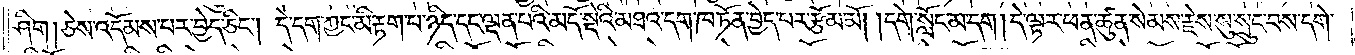ཤིག །ཅེས་འདོམས་པར་བྱེད་ཅིང༌། དེ་དག་ཀྱང་མི་རྟག་པ་ཉིད་དང་ལྡན་པའི་མདོ་སྡེའི་མཐའ་དག་ཁ་ཏོན་བྱེད་པར་རྩོམ་མོ། །དགེ་སློང་མ་དག །དེ་ལྟར་ཕན་ཚུན་སེམས་རྗེས་སུ་སྲུང་བས་དགེ་
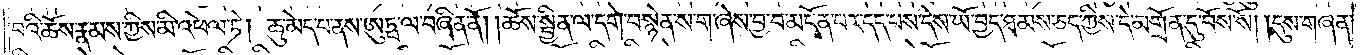བའི་ཆོས་རྣམས་ཀྱིས་མི་འཕེལ་ཏེ། ཆུ་མེད་པ་ནས་ཨུཏྤ་ལ་བཞིན་ནོ། །ཆོས་སྦྱིན་ལ་དགེ་བསྙེན་ས་ག་ཞེས་བྱ་བ་མངོན་པར་དད་པས་དེས་ཡོ་བྱད་ཐམས་ཅད་ཀྱིས་དེ་མགྲོན་དུ་བོས་སོ། །དུས་གཞན་
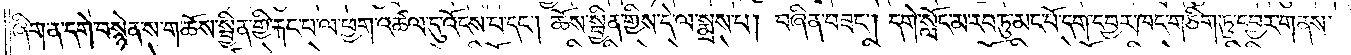ཞིག་ན་དགེ་བསྙེན་ས་ག་ཆོས་སྦྱིན་གྱི་རྐང་པ་ལ་ཕྱག་འཚལ་དུ་འོངས་པ་དང༌། ཆོས་སྦྱིན་གྱིས་དེ་ལ་སྨྲས་པ། བཞིན་བཟང༌། དགེ་སློང་མ་རབ་ཏུ་མང་པོ་དག་དབྱར་ཁང་གཅིག་ཏུ་དབྱར་གནས་
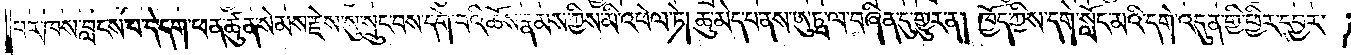པར་ཁས་བླངས་པ་དེ་དག་ཕན་ཚུན་སེམས་རྗེས་སུ་སྲུང་བས་དགེ་བའི་ཆོས་རྣམས་ཀྱིས་མི་འཕེལ་ཏེ། ཆུ་མེད་པ་ནས་ཨུཏྤ་ལ་བཞིན་དུ་གྱུར་ན། ཁྱོད་ཀྱིས་དགེ་སློང་མའི་དགེ་འདུན་གྱི་ཕྱིར་དབྱར་
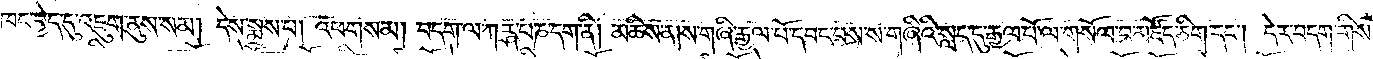ཁང་བྱེད་དུ་འཇུག་ནུས་སམ། དེས་སྨྲས་པ། འཕགས་མ། བདག་ལ་ཀཪྴ་པ་ཎ་དག་ནི། མཆིས་ན། ས་གཞི་རྒྱལ་པོ་དབང་བས་ས་གཞིའི་སླད་དུ་རྒྱལ་པོ་ལ་གསོལ་བ་མཛོད་ཅིག་དང༌། དེར་བདག་གིས་
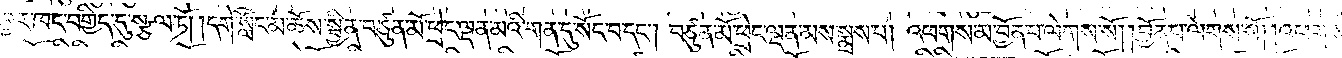དབྱར་ཁང་བགྱིད་དུ་སྩལ་ཏོ། །དགེ་སློང་མ་ཆོས་སྦྱིན་བཙུན་མོ་ཕྲེང་ལྡན་མའི་གན་དུ་སོང་བ་དང༌། བཙུན་མོ་ཕྲེང་ལྡན་མས་སྨྲས་པ། འཕགས་མ་བྱོན་པ་ལེགས་སོ། །བྱོན་པ་ལེགས་སོ། །འཕགས་
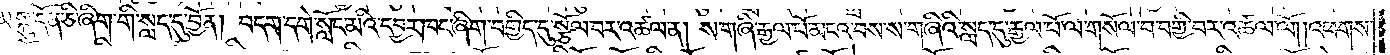མ་སྐུ་དོན་ཅི་ཞིག་གི་སླད་དུ་བྱོན། བདག་དགེ་སློང་མའི་དབྱར་ཁང་ཞིག་བགྱིད་དུ་སྩོལ་བར་འཚལ་ན། ས་གཞི་རྒྱལ་པོ་མངའ་བས་ས་གཞིའི་སླད་དུ་རྒྱལ་པོ་ལ་གསོལ་བ་བགྱི་བར་འཚལ་ལོ༎འཕགས་
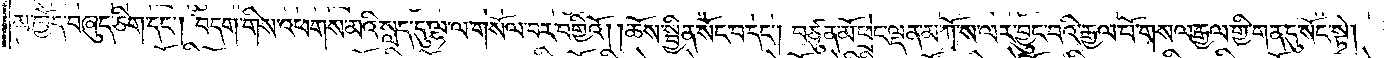མ་ཁྱོད་བཞུད་ཅིག་དང༌། བདག་གིས་འཕགས་མའི་སླད་དུ་ལྷ་ལ་གསོལ་བར་བགྱིའོ། །ཆོས་སྦྱིན་སོང་བ་དང༌། བཙུན་མོ་ཕྲེང་ལྡན་མ་ཀོ་ས་ལར་བྱུང་བའི་རྒྱལ་པོ་གསལ་རྒྱལ་གྱི་གན་དུ་སོང་སྟེ།
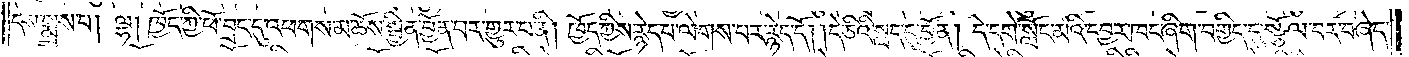དེས་སྨྲས་པ། ལྷ། ཁྱོད་ཀྱི་ཕོ་བྲང་དུ་འཕགས་མ་ཆོས་སྦྱིན་བྱོན་པར་གྱུར་པ་ནི། ཁྱོད་ཀྱིས་རྙེད་པ་ལེགས་པར་རྙེད་དོ། །དེ་ཅིའི་སླད་དུ་བྱོན། དེ་དགེ་སློང་མའི་དབྱར་ཁང་ཞིག་བགྱིད་དུ་སྩོལ་བར་བཞེད་
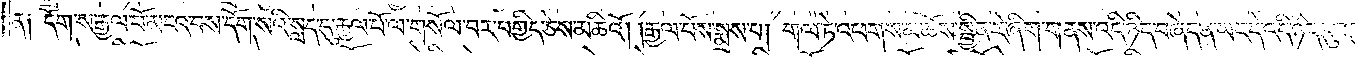ན། དོག་ས་རྒྱལ་པོ་མངའ་བས་དོག་སའི་སླད་དུ་རྒྱལ་པོ་ལ་གསོལ་བར་བགྱིད་ཅེས་མཆིའོ། །རྒྱལ་པོས་སྨྲས་པ། གལ་ཏེ་འཕགས་མ་ཆོས་སྦྱིན་རེ་ཞིག་གནས་འདི་ཉིད་བཞེད་ན་ཡང་དེ་འདི་ཉིད་དུ་བཞུགས་
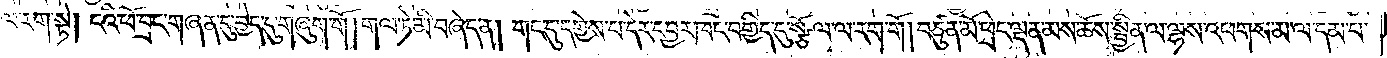ལ་རག་སྟེ། ངའི་ཕོ་བྲང་གཞན་དུ་བྱེད་དུ་གཞུག་གོ །གལ་ཏེ་མི་བཞེད་ན། གང་དུ་དགྱེས་པ་དེར་དབྱར་ཁང་བགྱིད་དུ་སྩོལ་ལ་རག་གོ། བཙུན་མོ་ཕྲེང་ལྡན་མས་ཆོས་སྦྱིན་ལ་ལྷས་འཕགས་མ་ལ་དམ་པ་
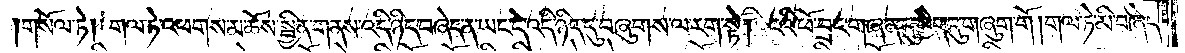གསོལ་ཏེ། གལ་ཏེ་འཕགས་མ་ཆོས་སྦྱིན་གནས་འདི་ཉིད་བཞེད་ན་ཡང་དེ་འདི་ཉིད་དུ་བཞུགས་ལ་རག་སྟེ། ངའི་ཕོ་བྲང་གཞན་དུ་བྱེད་དུ་གཞུག་གོ །གལ་ཏེ་མི་བཞེད་
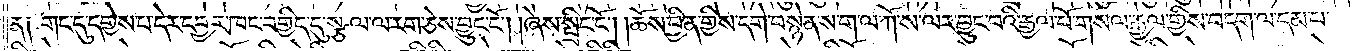ན༑ གང་དུ་དགྱེས་པ་དེར་དབྱར་ཁང་བགྱིད་དུ་སྩལ་ལ་རག་ཅེས་བྱུང་ངོ༌། །ཞེས་སྤྲིང་ངོ༌། །ཆོས་བྱིན་གྱིས་དགེ་བསྙེན་ས་ག་ལ་ཀོ་ས་ལར་བྱུང་བའི་རྒྱལ་པོ་གསལ་རྒྱལ་གྱིས་བདག་ལ་དམ་པ་
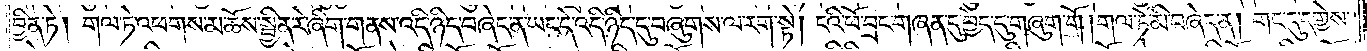བྱིན་ཏེ། གལ་ཏེ་འཕགས་མ་ཆོས་སྦྱིན་རེ་ཞིག་གནས་འདི་ཉིད་བཞེད་ན་ཡང་དེ་འདི་ཉིད་དུ་བཞུགས་ལ་རག་སྟེ། ངའི་ཕོ་བྲང་གཞན་དུ་བྱེད་དུ་གཞུག་གོ །གལ་ཏེ་མི་བཞེད་ན། གང་དུ་དགྱེས་
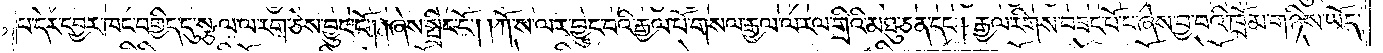པ་དེར་དབྱར་ཁང་བགྱིད་དུ་སྩལ་ལ་རག་ཅེས་བྱུང་ངོ༌། །ཞེས་སྤྲིང་ངོ༌། །ཀོ་ས་ལར་བྱུང་བའི་རྒྱལ་པོ་གསལ་རྒྱལ་ལ་རལ་གྲིའི་མཐུ་ཅན་དང༌། རྒྱལ་རིགས་བཟང་པོ་པ་ཞེས་བྱ་བའི་ཁྲོམ་གཉིས་ཡོད་
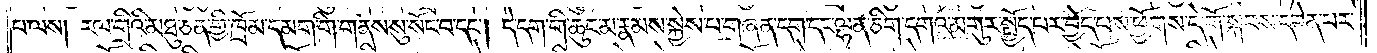པ་ལས། རལ་གྲིའི་མཐུ་ཅན་གྱི་ཁྲོམ་དམག་གི་གནས་སུ་སོང་བ་དང༌། དེ་དག་གི་ཆུང་མ་རྣམས་སྐྱེས་པ་གཞན་དག་དང་ལྷན་ཅིག་དགའ་མགུར་སྤྱོད་པར་བྱེད་པས་ཕྱོགས་དེ་གོ་སྐབས་དབེན་པར་
